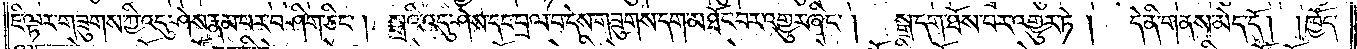ཇི་ལྟར་གཟུགས་ཀྱི་འདུ་ཤེས་རྣམ་པར་བཤིག་ཅིང༌། སྒྲའི་འདུ་ཤེས་དང་བྲལ་བ་དེས་གཟུགས་དག་མཐོང་བར་འགྱུར་ཞིང༌།  སྒྲ་དག་ཐོས་པར་འགྱུར་ཏེ།  དེ་ནི་གནས་མེད་དོ། །ཁྱོད་
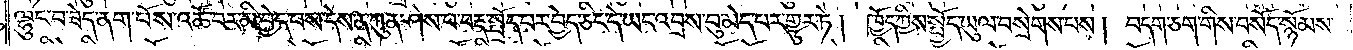ལྷུང་བཟེད་ནག་པོས་འཚོ་བར་མི་བྱེད་པས་དེས་ན་ཀུན་ཤེས་པ་བརྡ་སྤྲོད་པར་བྱེད་ཅིང་དེ་ཡང་འབྲས་བུ་མེད་པར་གྱུར་ཏེ། ཁྱོད་ཀྱིས་སྤྱོད་ཡུལ་བསྲེགས་པས། བདག་ཅག་གིས་བསོད་སྙོམས་
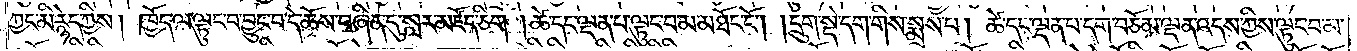ཀྱང་མི་རྙེད་ཀྱིས། ཁྱོད་ལ་ལྟུང་བ་བྱུང་བ་དེ་ཆོས་བཞིན་དུ་སླར་མཛོད་ཅིག །ཚེ་དང་ལྡན་པ་ལྟུང་བ་མ་མཐོང་ངོ༌། །དྲུག་སྡེ་དག་གིས་སྨྲས་པ། ཚེ་དང་ལྡན་པ་དག་བཅོམ་ལྡན་འདས་ཀྱིས་ལྟུང་བ་མ་
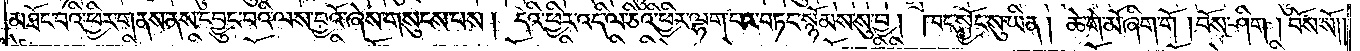མཐོང་བའི་ཕྱིར་གནས་ནས་དབྱུང་བའི་ལས་བྱའོ་ཞེས་གསུངས་པས། དེའི་ཕྱིར་འདི་ལ་ཅིའི་ཕྱིར་ལྷག་པར་བཏང་སྙོམས་སུ་བྱ། ཁང་སྐྱོང་སུ་ཡིན། ཆེ་གེ་མོ་ཞིག་གོ །བོས་ཤིག །བོས་སོ༎
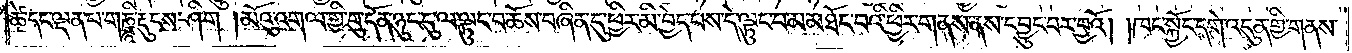ཚེ་དང་ལྡན་པ་གཎྜཱི་རྡུངས་ཤིག །མོའུ་འགལ་གྱི་བུ་དོན་ཉུང་ངུ་ལ་ལྟུང་བ་ཆོས་བཞིན་དུ་ཕྱིར་མི་བྱེད་པས་དེ་ལྟུང་བ་མ་མཐོང་བའི་ཕྱིར་གནས་ནས་དབྱུང་བར་བྱའོ། །ཁང་སྐྱོང་དགེ་འདུན་གྱི་གནས་
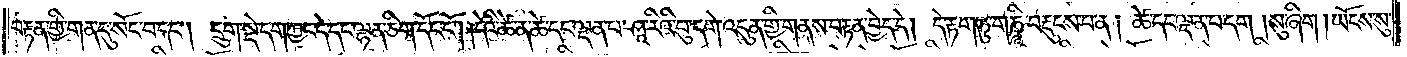བརྟན་གྱི་གན་དུ་སོང་བ་དང༌། དྲུག་སྡེ་དག་ཀྱང་དེ་དང་ལྷན་ཅིག་དོང་ངོ༌། །དེའི་ཚེ་ན་ཚེ་དང་ལྡན་པ་ཤཱ་རིའི་བུ་དགེ་འདུན་གྱི་གནས་བརྟན་བྱེད་དེ། དེ་རྟག་ཏུ་གཎྜཱའི་བརྡུངས་པ་ན། ཚེ་དང་ལྡན་པ་དག །སུ་ཞིག །ཡོངས་སུ་
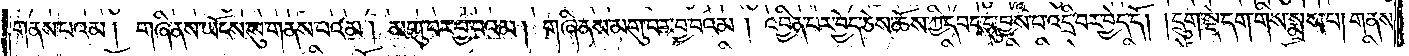གནས་པའམ། གཞི་ནས་ཡོངས་སུ་གནས་པའམ། མགུ་བར་བྱ་བའམ། གཞི་ནས་མགུ་བར་བྱ་བའམ། འབྱིན་པར་བྱེད་ཅེས་ཆོས་ཀྱི་དབང་དུ་བྱས་པ་འདྲི་བར་བྱེད་དོ། །དྲུག་སྡེ་དག་གིས་སྨྲས་པ། གནས་
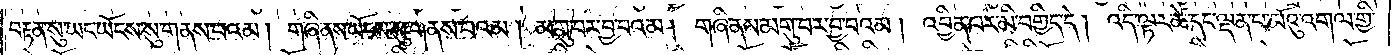བརྟན་སུ་ཡང་ཡོངས་སུ་གནས་པའམ། གཞི་ནས་ཡོངས་སུ་གནས་པའམ། མགུ་བར་བྱ་བའམ། གཞི་ནས་མགུ་བར་བྱ་བའམ། འབྱིན་པར་མི་བགྱིད་དེ། འདི་ལྟར་ཚེ་དང་ལྡན་པ་མོའུ་འགལ་གྱི་
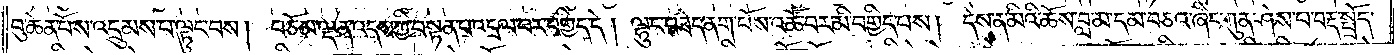བུ་ཆེན་པོས་འདྲུམས་པ་ལྟུང་བས། བཅོམ་ལྡན་འདས་ཀྱི་བསྟན་པ་འདྲལ་བར་བགྱིད་དེ། ལྷུང་བཟེད་ནག་པོས་འཚོ་བར་མི་བགྱིད་པས། དེས་ན་མིའི་ཆོས་བླ་མ་དམ་བཅའ་ཞིང་ཀུན་ཤེས་པ་བརྡ་སྤྲོད་
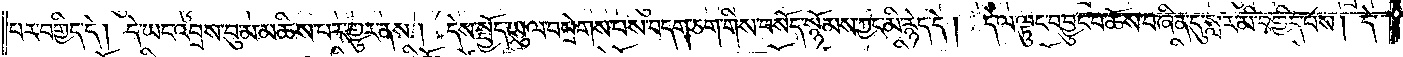པར་བགྱིད་དེ། དེ་ཡང་འབྲས་བུ་མ་མཆིས་པར་གྱུར་ནས། དེས་སྤྱོད་ཡུལ་བསྲེགས་པས་བདག་ཅག་གིས་བསོད་སྙོམས་ཀྱང་མི་རྙེད་དེ། དེ་ལ་ལྟུང་བ་བྱུང་བ་ཆོས་བཞིན་དུ་སླར་མི་བགྱིད་པས། དེ་
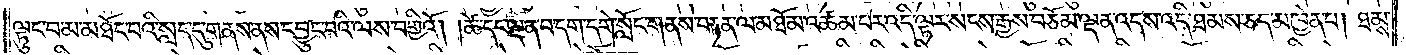ལྟུང་བ་མ་མཐོང་བའི་སླད་དུ་གནས་ནས་དབྱུང་བའི་ལས་བགྱིའོ། །ཚེ་དང་ལྡན་པ་དག་དགེ་སློང་གནས་བརྟན་ལ་མཐོ་མ་འཚམ་པར་འདི་ལྟར་སངས་རྒྱས་བཅོམ་ལྡན་འདས་འདི་ཐམས་ཅད་མཁྱེན་པ། ཐམས་
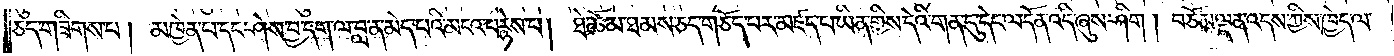ཅད་གཟིགས་པ། མཁྱེན་པ་དང་ཤེས་བྱ་དག་ལ་བླ་ན་མེད་པའི་མངའ་བརྙེས་པ། ཐེ་ཚོམ་ཐམས་ཅད་གཅོད་པར་མཛད་པ་ཡིན་གྱིས་དེའི་གན་དུ་དེང་ལ་དོན་འདི་ཞུས་ཤིག །བཅོམ་ལྡན་འདས་ཀྱིས་ཁྱེད་ལ་
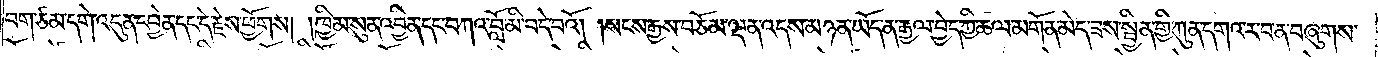བག་ཙམ་དགེ་འདུན་དབྱེན་དང་དེ་རྗེས་ཕྱོགས། །ཁྱིམ་སུན་འབྱིན་དང་བཀའ་བློ་མི་བདེ་བའོ།    །སངས་རྒྱས་བཅོམ་ལྡན་འདས་མཉན་ཡོད་ན་རྒྱལ་བྱེད་ཀྱི་ཆལ་མགོན་མེད་ཟས་སྦྱིན་གྱི་ཀུན་དགའ་ར་བ་ན་བཞུགས་
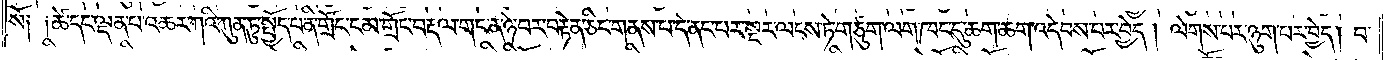སོ༑ ༑ཚེ་དང་ལྡན་པ་འཆར་ཀའི་ཀུན་ཏུ་སྤྱོད་པ་ནི་གྲོང་ངམ་གྲོང་བརྡལ་གང་ན་ཉེ་བར་བརྟེན་ཅིང་གནས་པ་དེ་ནང་པར་སྔར་ལངས་ཏེ་གཙུག་ལག་ཁང་དུ་ཆག་ཆག་འདེབས་པར་བྱེད། ལེགས་པར་ཉུག་པར་བྱེད། བ་
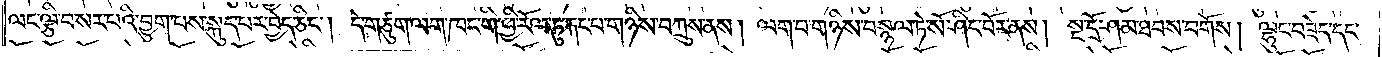ལང་ལྕི་བ་སར་པའི་བྱུག་པས་སྐུད་པར་བྱེད་ཅིང༌། དེ་གཙུག་ལག་ཁང་གི་ཕྱི་རོལ་ཏུ་རྐང་པ་གཉིས་བཀྲུས་ནས། ལག་པ་གཉིས་བསྙལ་ཏེ་སོ་ཤིང་བོར་ནས། སྔ་དྲོ་ཤམ་ཐབས་བགོས། ལྷུང་བཟེད་དང་
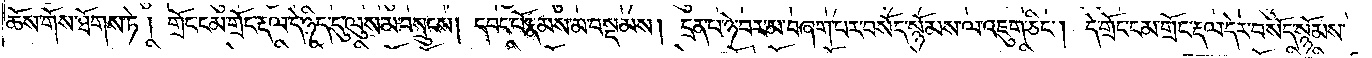ཆོས་གོས་ཐོགས་ཏེ། གྲོང་ངམ་གྲོང་རྡལ་དེ་ཉིད་དུ་ལུས་མ་བསྲུངས། དབང་པོ་རྣམས་མ་བསྡམས། དྲན་པ་ཉེ་བར་མ་བཞག་པར་བསོད་སྙོམས་ལ་འཇུག་ཅིང༌། དེ་གྲོང་ངམ་གྲོང་རྡལ་དེར་བསོད་སྙོམས་
